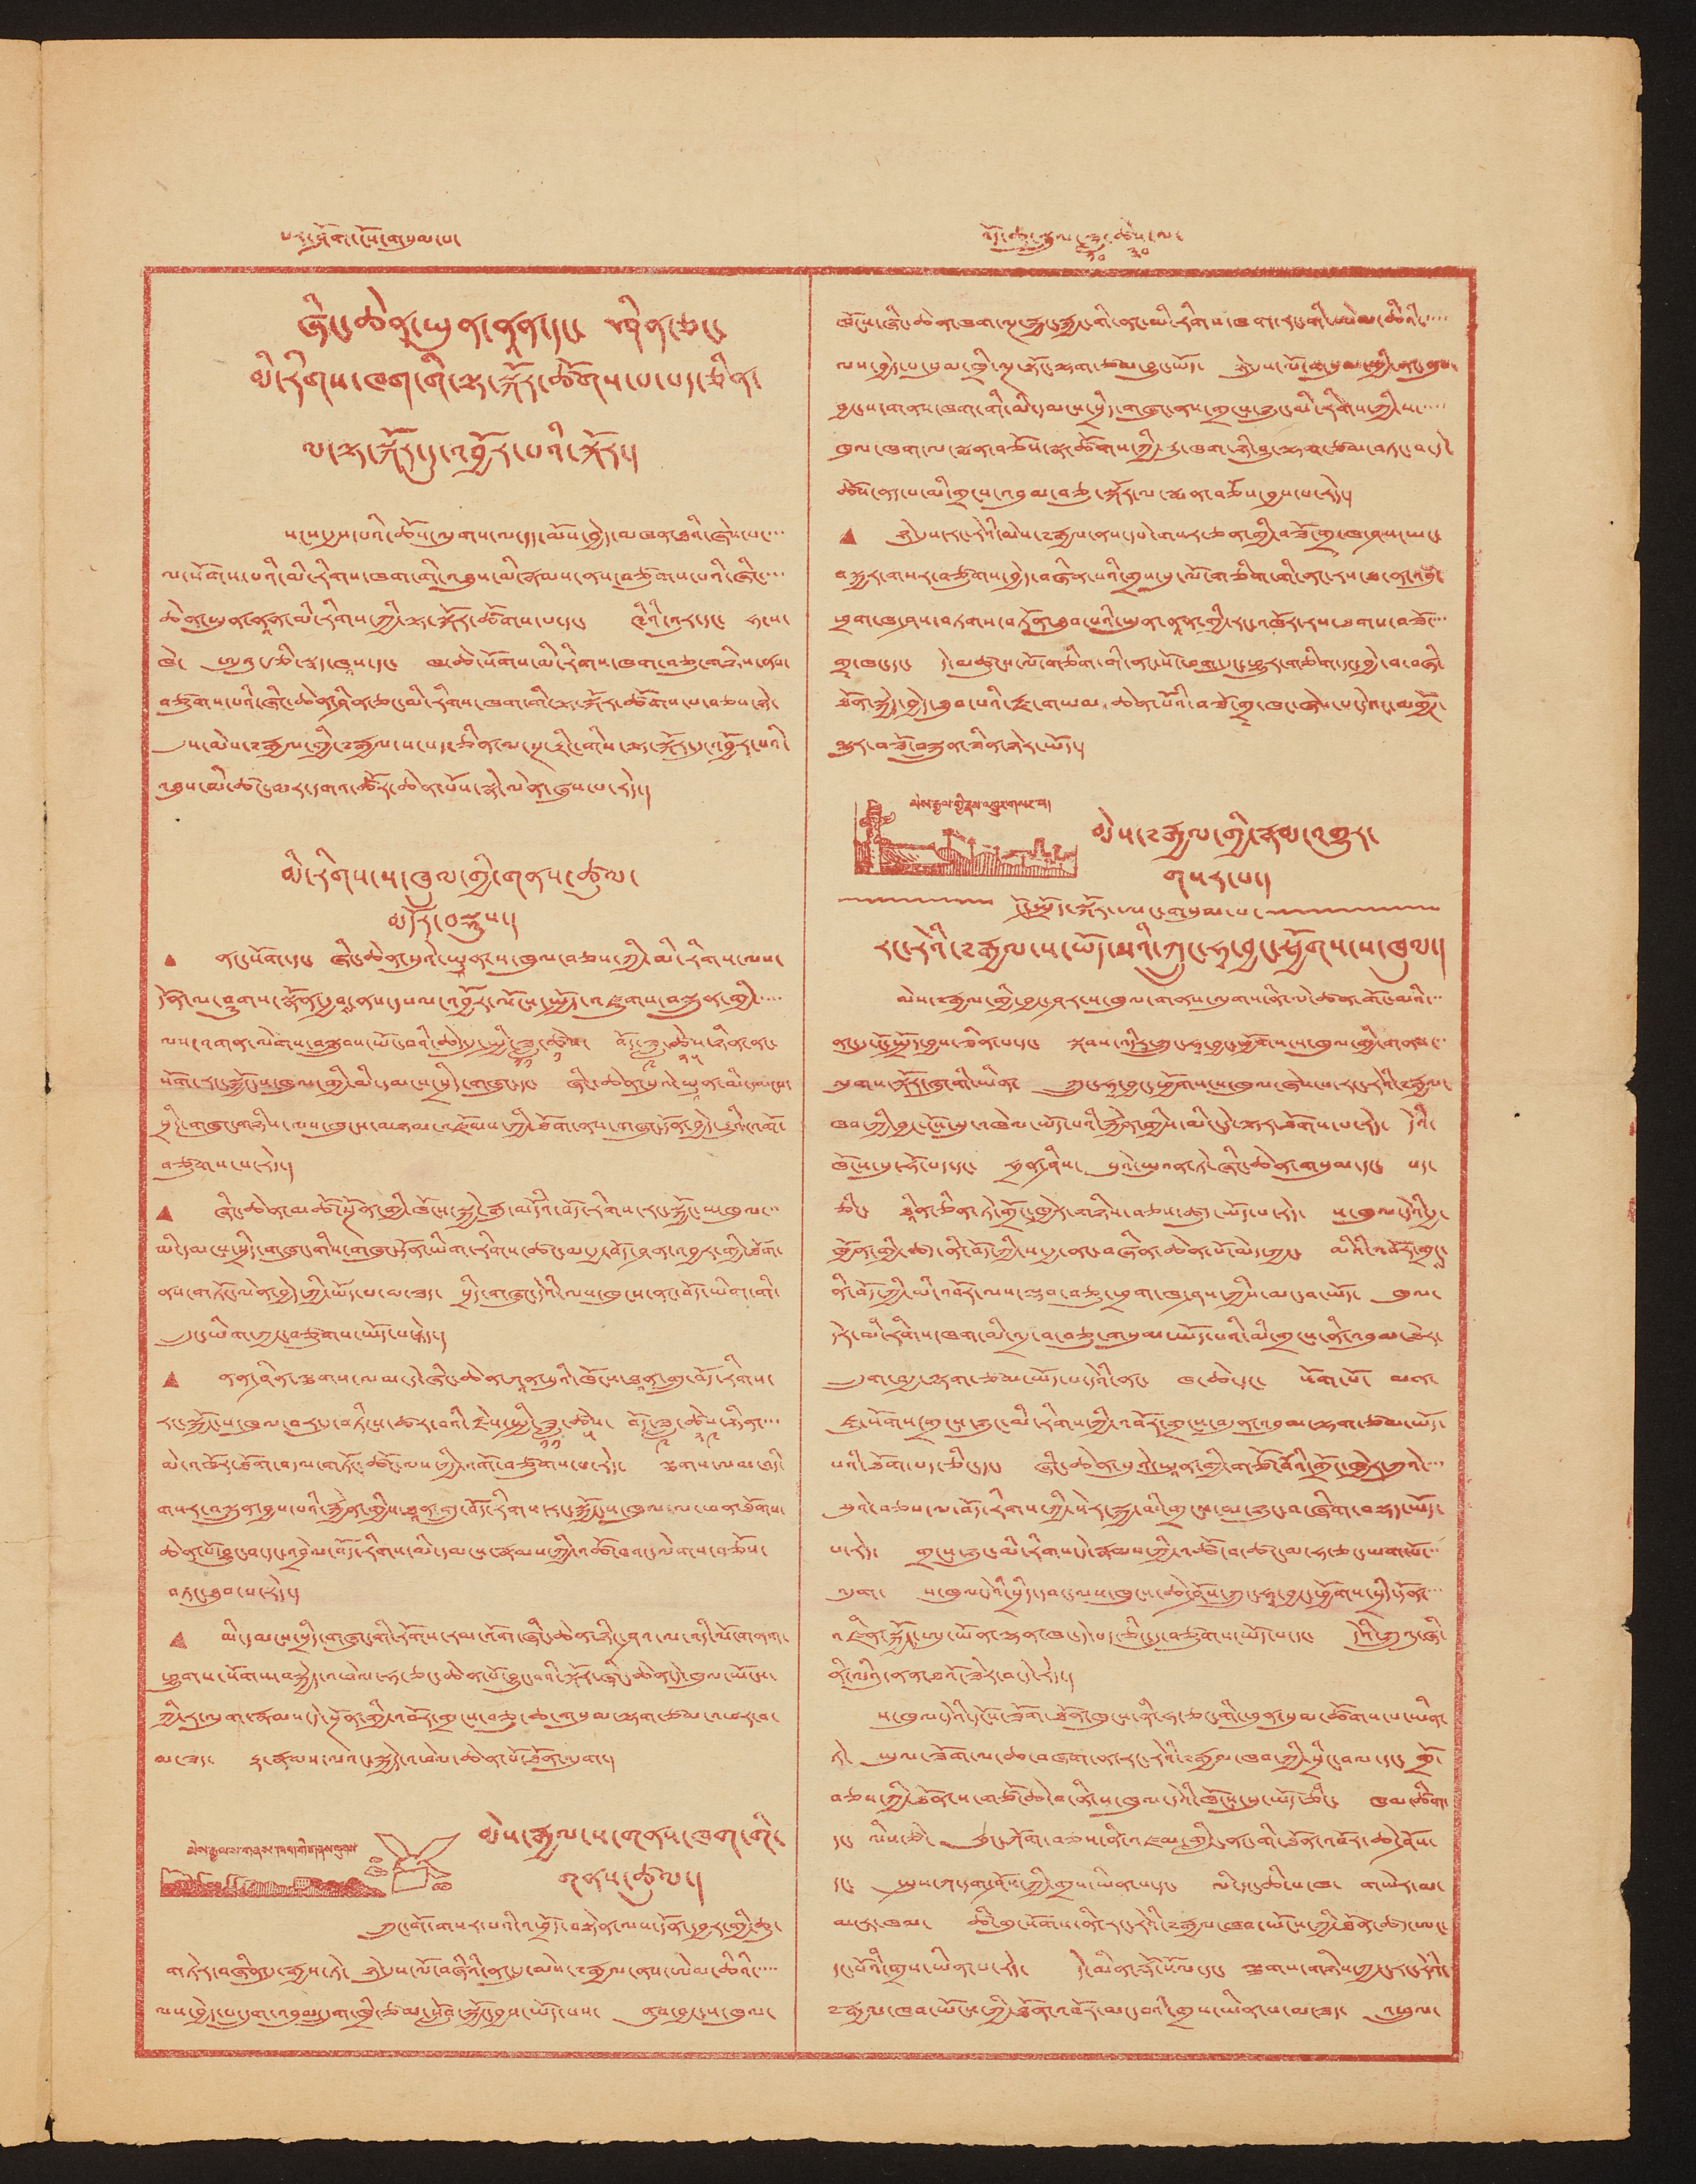པར་ཤོག་ངོས་གསུམ་པ་ བོད་ཆུ་སྦྲུལ་ཟླ་
༡༠
ཚེས་
༣༠
ལ་
ཞིང་ཆེན་ཡུན་ནཱན་དང་ ཤིན་ཅང་
མི་རིགས་ཁག་གི་ལྟ་སྐོར་ཚོགས་པ་པད་ཅིན་
ལ་ལྟ་སྐོར་དུ་འབྱོར་པའི་སྐོར་།
སངས་རྒྱས་པའི་ཆོས་ལུགས་ལ་དད་མོས་བྱེད་མཁན་ཐའི་ཞེས་པ་་་་
ལ་སོགས་པའི་མི་རིགས་ཁག་གི་འཐུས་མི་རྣམས་ནས་བཙུགས་པའི་ཞིང་་་་
ཆེན་ཡུན་ནཱན་མི་རིགས་ཀྱི་ལྟ་སྐོར་ཚོགས་པ་དང་ ཝིའི་འུར་དང་ ཧ་ས་
ཁེ་ ཨུའུ་རྩི་སྦད་ཁཱས་དང་ ཁ་ཆེ་སོགས་མི་རིགས་ཁག་བཅུ་གཉིས་ནས་
བཙུགས་པའི་ཞིང་ཆེན་ཤིན་ཅང་མི་རིགས་ཁག་གི་ལྟ་སྐོར་ཚོགས་པ་བཅས་ཉེ་
དུས་མེས་༸རྒྱལ་གྱི་༸རྒྱལ་ས་པད་ཅིན་ལ་སྔ་རྟིང་གིས་ལྟ་སྐོར་དུ་འབྱོར་པའི་
འཐུས་མི་ཚང་མར་དགའ་ཚོར་ཆེན་པོས་སྣེ་ལེན་ཞུས་པ་རེད་།
མི་རིགས་ས་ཁུལ་གྱི་གནས་ཚུལ་
མདོར་བསྡུས་།
• ནང་སོག་དང་ ཞིང་ཆེན་སུའེ་ཡཱུན་ས་ཁུལ་བཅས་ཀྱི་མི་རིགས་ལས་
དོན་ལ་ཤུགས་སྣོན་རྒྱབས་ནས་དཔལ་འབྱོར་ལོངས་སྤྱོད་འཛུགས་བསྐྲུན་གྱི་་་་་
ལས་འགན་ལེགས་བསྒྲུབས་ཡོང་བའི་ཆེད་དུ་སྤྱི་ཟླ་
༡༡
ཚེས་
༡
བོད་ཟླ་
༩
ཚེས་
༢༥
ཉིན་ནང་
སོག་རང་སྐྱོང་ས་ཁུལ་གྱི་མི་དམངས་སྲིད་གཞུང་དང་ ཞིང་ཆེན་སུའེ་ཡཱུན་མི་དམངས་
སྲིད་གཞུང་གཉིས་ལས་ཁུངས་མཉམ་འཛོམས་ཀྱི་ཐོག་ནས་གཞུང་དོན་བྱེད་རྒྱུའི་འགོ་
བཙུགས་པ་རེད་།
• ཞིང་ཆེན་མཚོ་སྔོན་གྱི་ཁོངས་སྐྱེ་རྒུ་མདོའི་བོད་རིགས་རང་སྐྱོང་ས་ཁུལ་་་
མི་དམངས་སྲིད་གཞུང་གིས་གཞུང་དོན་ཡིག་རིགས་ཚང་མ་རྒྱ་བོད་ཤན་འབྱར་གྱི་ཐོག་
ནས་གཏོང་ལེན་བྱེད་ཀྱི་ཡོད་པ་མ་ཟད་ སྲིད་གཞུང་དེའི་ལས་ཁུངས་ནང་བོད་ཡིག་གི་
དྲུང་ཡིག་ཀྱང་བཙུགས་ཡོད་པ་རེད་།
• ནན་ཤིན་ལྕགས་ལམ་དེ་ཞིང་ཆེན་ཀཱན་སུའི་ཁོངས་ཐཱན་གྲུ་བོད་རིགས་
རང་སྐྱོང་ས་ཁུལ་བར་དུ་བཏིངས་ཚར་བའི་རྗེས་སྤྱི་ཟླ་
༡༡
ཚེས་
༥
བོད་ཟླ་
༩
ཚེས་
༢༩
ཉིན་་་་
མེ་འཁོར་ཐོག་བདལ་གཏོང་ཚོང་ལས་ཀྱི་འགོ་བཙུགས་པ་རེད་ ལྕགས་ལམ་འདི་
གསར་བསྐྲུན་བྱས་པའི་རྐྱེན་གྱིས་ཐཱན་གྲུ་བོད་རིགས་རང་སྐྱོང་ས་ཁུལ་ལ་ཕན་ཐོགས་
ཆེན་པོ་བྱུང་བ་དང་འབྲེལ་བོད་རིགས་མི་དམངས་རྣམས་ཀྱི་འཚོ་བའང་ལེགས་བཅོས་
བཏང་ཐུབ་པ་རེད་།
• མི་དམངས་སྲིད་གཞུང་གི་རོགས་རམ་འོག་ཞིང་ཆེན་ཤིང་ཤའ་ལ་འདི་ལོ་གནག་
ཕྱུགས་སོགས་བསྐྱེད་འཕེལ་ཧ་ཅང་ཆེན་པོ་བྱུང་བའི་སྐོར་ཞིང་ཆེན་དེ་ཁུལ་ཡོངས་
ཀྱི་ར་ལུག་རྣམས་དེ་སྔོན་གྱི་འབོར་གྲངས་བཅུ་ཆ་གསུམ་ལྷག་ཙམ་འཕར་བ་
མ་ཟད་ རྟ་རྣམས་ལའང་སྐྱེད་འཕེལ་ཆེན་པོ་ཐོན་འདུག་།
མེས་རྒྱལ་ས་གནས་ཁག་གི་གནས་ལུགས་
མེས་རྒྱལ་ས་གནས་ཁག་གི་
གནས་ཚུལ་།
ཀྲུང་གོ་གསར་པའི་འཕྲོད་བསྟེན་ལས་དོན་དབྱར་གྱི་ཆུ་
གཏེར་བཞིན་དུ་རྒྱས་ཏེ་ ཉེ་དུས་ལོ་བཞིའི་ནང་དུ་མེས་༸རྒྱལ་ནས་ཨེམ་ཆིའི་་་་་
ལས་བྱེད་པ་དྲུག་འབུམ་དྲུག་ཁྲི་ཙམ་སློབ་སྐྱོང་བྱས་ཡོད་པས་ ནུབ་བྱང་ས་ཁུལ་
ཁོངས་ཞིང་ཆེན་ཁག་ལྔ་རྐྱང་རྐྱང་གི་ནང་མི་རིགས་ཁག་རང་གི་ཨེམ་ཆིའི་་་་་
ལས་བྱེད་པ་སུམ་ཁྲི་ལྔ་སྟོང་ལྷག་ཙམ་བྱུང་ཡོད་ ཉེ་དུས་ལོ་གསུམ་གྱི་ནང་ནུབ་
བྱང་ས་གནས་ཁག་གི་མི་དམངས་སྲིད་གཞུང་ནས་གྲངས་ཉུང་མི་རིགས་ཀྱི་ས་་་་་
ཁུལ་ཁག་ལ་སྨན་བཅོས་སྣ་ཚོགས་ཀྱི་རུ་ཁག་ཉི་ཤུ་ལྷག་ཙམ་བཏང་བ་དེ་
ཚོས་ནད་པ་མི་གྲངས་འབུམ་བཅུ་སྐོར་ལ་སྨན་བཅོས་བྱས་པ་རེད་།
• ཉེ་དུས་རང་རེའི་མེས་༸རྒྱལ་ནས་དཔེ་གསར་ཅན་གྱི་བཟོ་གྲྭ་ཁ་ཤས་ཡང་
བསྐྱར་གསར་བཙུགས་བྱེད་བཞིན་པའི་གྲས་སུ་ལོ་གཅིག་གི་ནང་རས་ཐ་ན་འབུཾ་
ཕྲག་ཁ་ཤས་བཏགས་བཏོན་ཐུབ་པའི་ཡུན་ནཱན་གྱི་རང་འཁོར་རས་ཐགས་བཟོ་་་་
གྲྭ་ཁང་དང་ དེ་མཚུངས་ལོ་གཅིག་གི་ནང་སོ་ཕག་དུང་ཕྱུར་གཅིག་དང་བྱེ་བ་བཞི་
ཐོན་སྐྱེད་བྱེད་ཐུབ་པའི་རྫ་གཡམ་ཆེན་པོའི་བཟོ་གྲྭ་ཁང་ཞེས་པ་དེའང་མགྱོཊ་
མྱུར་བཟོ་བསྐྲུན་ཟིན་ཉེར་ཡོད་།
མེས་རྒྱལ་གྱི་རྣམ་འགྱུར་གསར་པ།
མེས་༸རྒྱལ་གྱི་རྣམ་འགྱུར་
གསར་པ་།
ངོ་སྤྲོད་སྐོར་ཨང་གསུམ་པ་
རང་རེའི་༸རྒྱལ་ས་ཡོད་པའི་ཀྲུང་ཧྭ་བྱང་ཕྱོགས་ས་ཁུལ་།
མེས་༸རྒྱལ་གྱི་བྱང་ཤར་ས་ཁུལ་གནས་ལུགས་ནི་ལེ་ཚན་གོང་མའི་་་
ནང་དུ་ངོ་སྤྲོད་བྱས་ཟིན་པ་དང་ སྐབས་འདིར་ཀྲུང་ཧྭ་བྱང་ཕྱོགས་ས་ཁུལ་གྱི་གནས་་་
ལུགས་སྐོར་ཞུ་གི་ཡིན་ ཀྲུང་ཧྭ་བྱང་ཕྱོགས་ས་ཁུལ་ཞེས་པ་རང་རེའི་༸རྒྱལ་
ཁབ་ཀྱི་བྱང་ངོས་སུ་འཁེལ་ཡོད་པའི་རྐྱེན་གྱིས་མིང་དེ་ལྟར་ཐོགས་པ་རེད་ དེའི་
ཁོངས་སུ་ཧོ་པད་དང་ ཧྲན་ཤིས་ སུའེ་ཡུའན་ཏེ་ཞིང་ཆེན་གསུམ་དང་ པད་
ཅིང་ ཐཱིན་ཅིན་ཏེ་གྲོང་ཁྱེར་གཉིས་བཅས་ཚུད་ཡོད་པ་རེད་ ས་ཁུལ་དེའི་རྒྱ་
ཁྱོན་གྱི་ཚད་ནི་བོད་ཀྱི་ས་རྒྱ་ནང་བཞིན་ཆེན་པོ་མེད་ཀྱང་ མིའི་འབོར་གྲང་
ས
ནི་བོད་ཀྱི་མི་འབོར་ལས་ལྡབ་བཅུ་ཕྲག་ཁ་ཤས་ཀྱིས་མང་བ་ཡོད་ ཁུལ་
དེར་མི་རིགས་ཁག་གི་འདྲ་བ་བཅུ་གསུམ་ཡོད་པའི་མི་གྲངས་ནི་འབུམ་ཐེར་
དྲུག་བརྒྱ་ལྷག་ཙམ་ཡོད་པ་དེའི་ནང་ ཁ་ཆེ་དང་ སོག་པོ་ མན་
ཇུ་སོགས་གྲངས་ཉུང་མི་རིགས་ཀྱི་འབོར་གྲངས་བདུན་འབུམ་ལྷག་ཙམ་ཡོད་
པའི་ཐོག་པད་ཅིང་དང་ ཞིང་ཆེན་སུའེ་ཡཱུན་གྱི་གཙོ་བོའི་གྲོང་ཁྱེར་ཀུའེ་་་་
སུའེ་བཅས་ལ་བོད་རིགས་ཀྱི་སེར་སྐྱ་མི་གྲངས་མ་ཉུང་བ་ཞིག་བསྡད་ཡོད་
པ་རེད་ གྲངས་ཉུང་མི་རིགས་དེ་རྣམས་ཀྱི་འཚོ་བ་ཚང་མ་ཧ་ཅང་ཡག་པོ་་་
འདུག་ ས་ཁུལ་དེའི་སྲིད་དབང་ལས་ཁུངས་ཆེ་ཤོས་ཀྲུང་ཧྭ་བྱང་ཕྱོགས་དྲིད་དོན་་་་
འཛིན་སྐྱོང་ཨུ་ཡོན་ལྷན་ཁང་དེ་པད་ཅིང་དུ་བཙུགས་ཡོད་པ་དང་ དེའི་ཀྲུའུ་ཞི་
ནི་ལིའུ་ནན་ཐའོ་ཟེར་བ་དེ་རེད་།
ས་ཁུལ་དེའི་དངོས་ཟོག་ཐོན་ཁུངས་ནི་ཧ་ཅང་གི་ཕུན་སུམ་ཚོགས་པ་ཡིན་
ཏེ་ ཡུལ་ཟོག་ལ་ཆ་བཞག་ན་རང་རེའི་༸རྒྱལ་ཁབ་ཀྱི་སྲིང་བལ་དང་ གྲོ་
བཅས་ཀྱི་ཐོན་ས་གཙོ་ཆེ་བ་ནི་ས་ཁུལ་དེའི་ཁོངས་སུ་ཡོད་ཅིང་ ཁམ་ཚིག་
དང་ ལིས་ཙེ་ ཧུང་ཀོག་བཅས་ནི་འཛམ་གླིང་ནང་གི་ཐོན་འབོར་ཆེ་ཤོས་
དང་ སྤུས་ཀ་དག་ཤོས་ཀྱི་གྲས་ཡོན་པ་དང་ ལི་དང་ཆི་པ་ཁ་ གཡེར་མ་
མངར་ཁམ་ ཚི་གུ་སོགས་ནི་རང་རེའི་༸རྒྱལ་ཁབ་ཡོངས་ཀྱི་ཐོན་ཚད་ཨང་
དང་པོའི་གྲས་ཡིན་པ་རེད་ དེ་མིན་རྡོ་སོལ་དང་ ལྕགས་གཉིས་ཀྱང་རང་རེའི་
༸རྒྱལ་ཁབ་ཡོངས་ཀྱི་ཐོན་འབོར་མང་བའི་གྲས་ཡིན་པ་མ་ཟད་ འཕྲུལ་
